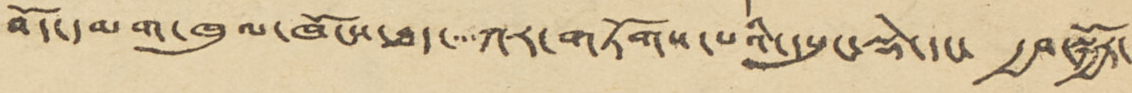བོད་དམག་ཁུལ་ཁོངས་ཐད་་་་ཀར་གཏོགས་པའི་དཔུང་སྡེ་དང་ རྒྱབ་སྐྱོར་
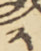༢
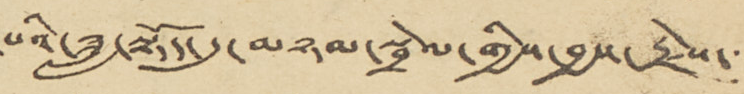པའི་ཟླ་སྟོད་དུ་མཉམ་སྦྲེལ་གྱིས་བྱས་རྗེས་་་་
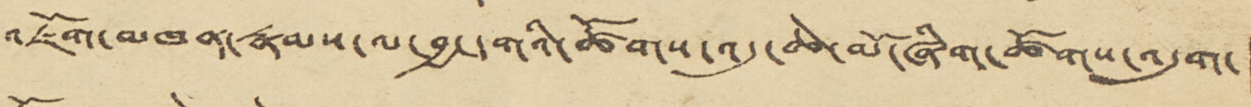འཇོག་མཁན་རྣམས་ལ་བྱ་དགའི་ཚོགས་འདུ་ཆེ་མོ་ཞིག་ཚོགས་འདུག་ །
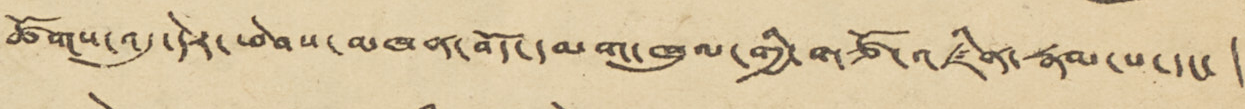ཚོགས་འདུ་དེར་ཕེབས་མཁན་བོད་དམག་གྱི་གཙོ་འཛིན་རྣམ་པ་དང་ །
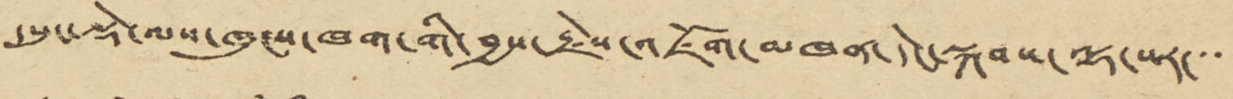དཔུང་སྡེ་ལས་ཁུངས་ཁག་གི་བྱས་རྗེས་འཇོག་མཁན་དེང་སྐབས་ལྷ་སར་་་་་
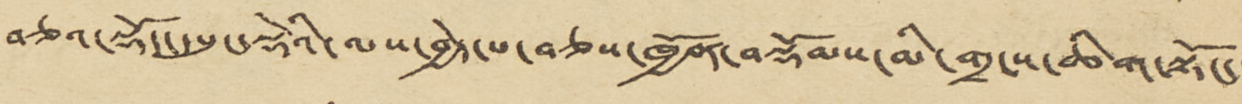བཅའ་སྡོད་དཔུང་སྡེའི་ལས་བྱེད་པ་བཅས་ཁྱོན་བསྡོམས་མི་གྲངས་ཆིག་སྟོང་་
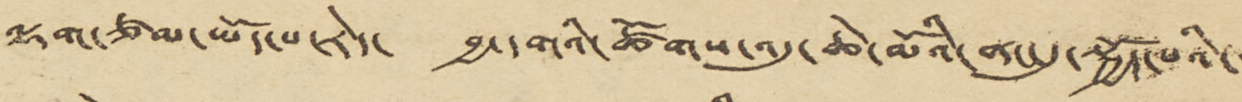ལྷག་ཙམ་ཡོད་པ་རེད་ བྱ་དགའི་ཚོགས་འདུ་ཆེ་མོའི་ནང་དུ་སྐྱོད་པའི་་
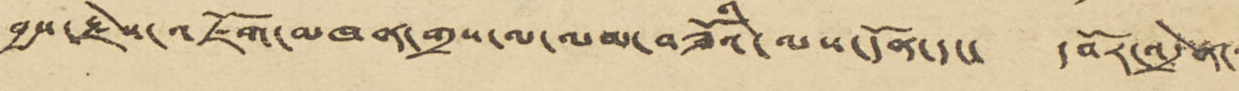བྱས་རྗེས་འཇོག་མཁན་གྲས་ལ་ལམ་བཟོའི་ལས་དོན་དང་ དབོར་འདྲེན་་་
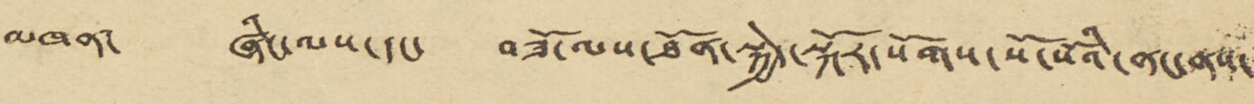མཁན་ ཞིང་ལས་དང་ བཟོ་ལས་ཐོན་སྐྱེད་སྐོར་སོགས་སོ་སོའི་ནང་ནས་
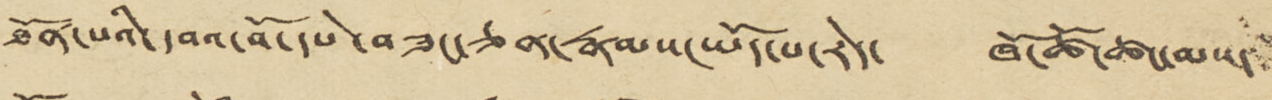ཐོན་པའི་དབའ་བོ་དཔེ་བཟང་ཅན་རྣམས་ཡོད་པ་རེད་ ཁོ་ཚོ་ཚང་མས་
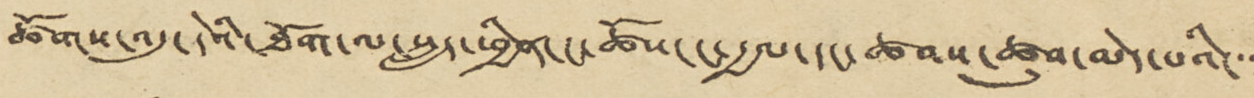ཚོགས་འདུ་དེའི་ཐོག་ལ་སླད་ཕྱིན་ང་ཚོས་ང་རྒྱལ་དང་ཚབས་ཚུབ་མེད་པའི་་་
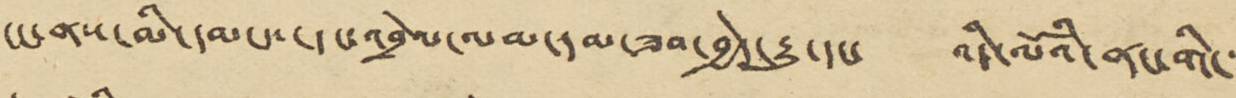ངང་ནས་མི་དམངས་དང་འབྲེལ་ལམ་དམ་ཟབ་བྱེད་རྒྱུ་དང་ འདིའི་ལོའི་ནང་གི་་་
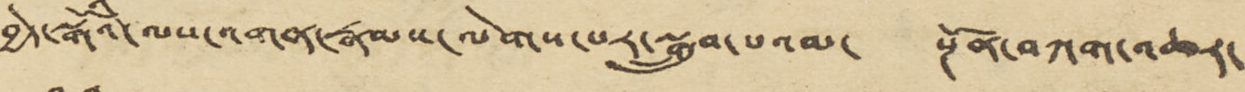བྱེད་སྒོའི་ལས་འགན་རྣམས་ལེགས་པར་སྒྲུབ་པའམ་ སྔོན་བཀག་འཆར་
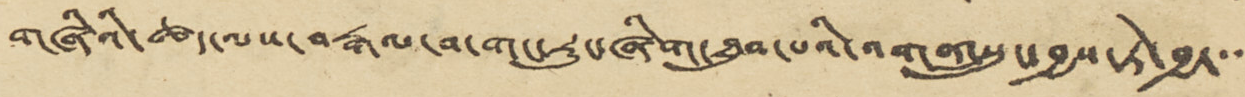གཞིའི་ཚད་ལས་བརྒལ་བ་གང་རུང་ཞིག་ཐུབ་པའི་འགན་སྲུང་བྱས་ཏེ་བྱ་་་་
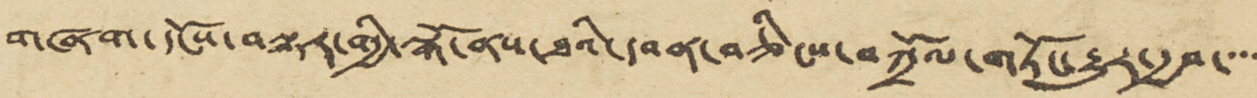གཞག་དངོས་བསྟར་གྱི་སྒོ་ནས་ཐའི་དབན་བཅིངས་བཀྲོལ་གཏོང་རྒྱུར་རྒྱབ་་་་
